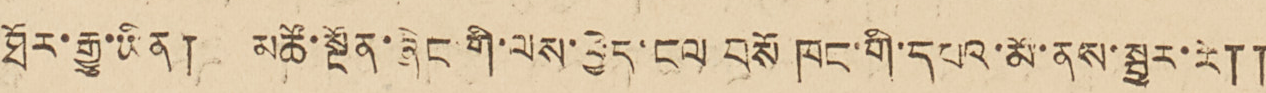ཐོར་རྒྱུ་ཡིན། མཚོ་སྔོན་ཞིང་གི་ལས་བྱེད་ངལ བསོ ཁང་གི་དཔའ་མོ་ནས་སྦྱར་རེ༎
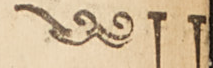༄༅། །
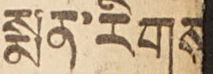སྨན་རིགས་
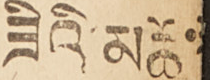ཟིའི་མཚོ་
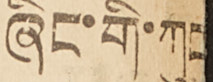ཞིང་གི་ཀུང
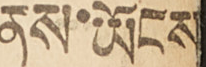ནས་ཡོངས
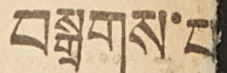བསྒྲགས་པ
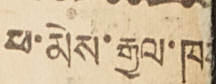ཕ་མེས་རྒྱལ་ཁ
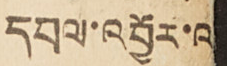དབལ་འབྱོར་ལ
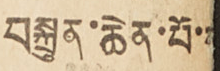བསྐྲུན་ཆེན་པོ་
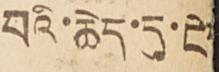བའི་ཆེད་དུ་ངེ
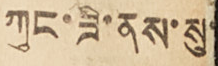ཀུང་ཟི་ནས་སུ་
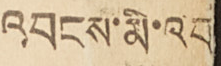འབངས་མི་འབ
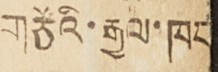གཙོའི་རྒྱལ་ཁབ
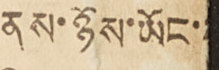ནས་ཉོས་ཡོང་
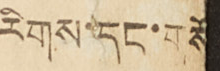རིགས་དང་གསོ
